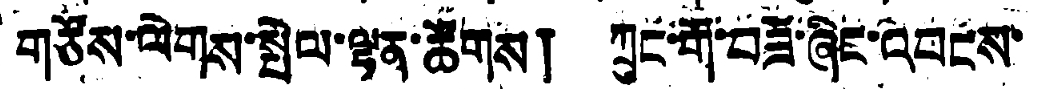གཙོས་ལེགས་སྤེལ་ལྷན་ཚོགས། ཀྲུང་གོ་བཟོ་ཞིང་འབངས་
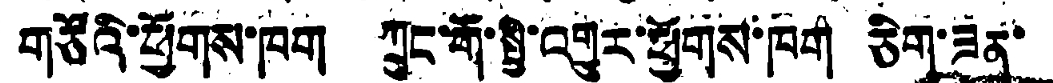གཙོའི་ཕྱོགས་ཁག ཀྲུང་གོ་སྤྱི་འགྱུར་ཕོགས་ཁག ཅིག་ཟན་
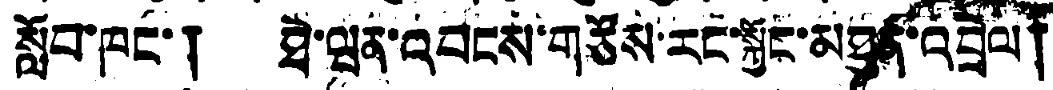སློབ་ཁང་། ཐེ་ཝན་འབངས་གཙོས་རང་སྐྱོང་མཐུན་འབྲེལ།
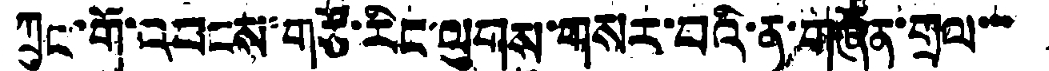ཀྲུང་གོ་འབངས་གཙོ་རིང་ལུགས་གསར་བའི་ན་གཞོན་གྲལ་་་
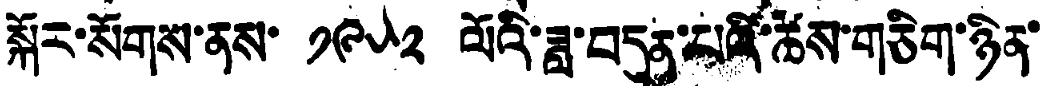སྐོར་སོགས་ནས་ ༡༩༥༢ ལོའི་ཟླ་བདུན་པའི་ཚེས་གཅིག་ཉིན་
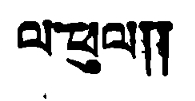ལ་ཕུལ།།
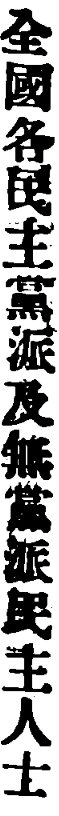全國各民主黨派及無黨派民主人士
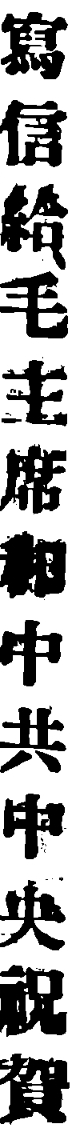寫信給毛主席和中共中央祝賀
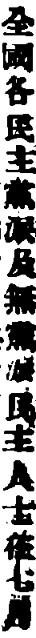全國各民主黨派及無黨派民主人士在七月
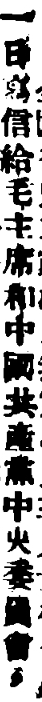一日寫信給毛主席和中國共產黨中央委員會，
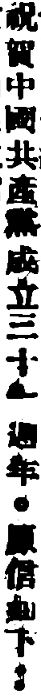祝賀中國共產黨成立三十一週年。原信如下：
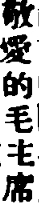敬愛的毛主席
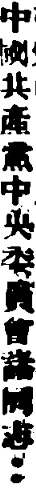中國共產黨中央委員會諸同志：
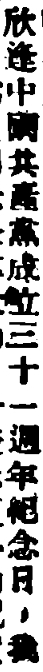欣逢中國共產黨成立三十一週年紀念日，我
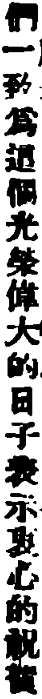們一致爲這個光榮偉大的日子表示衷心的祝賀
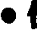。
